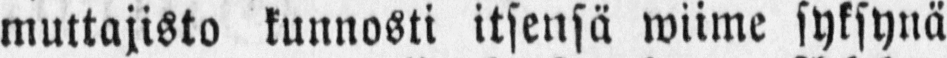muttajisto kunnosti itsensä wiime syksynä
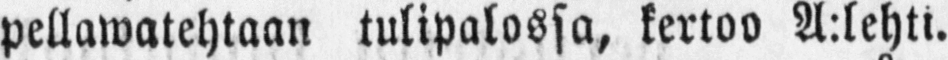pellawatehtaan tulipalossa, kertoo A:lehti.
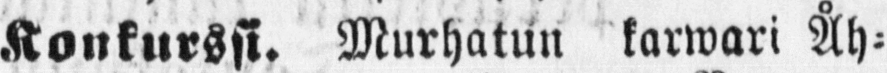Konkurssi. Murhatun karwari Åh-
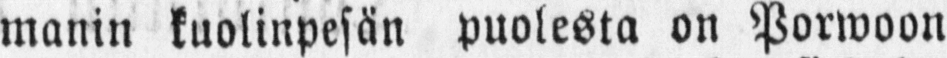manin kuolinpesän puolesta on Porwoon
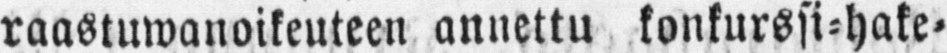raastuwanoikeuteen annettu konkurssi-hake-
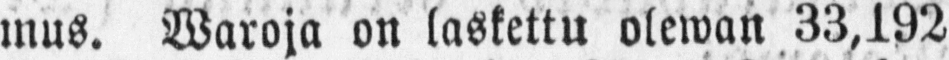mus. Waroja on laskettu olewan 33,192
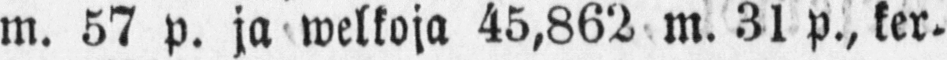m. 57 p. ja welkoja 45,862 m. 31 p., ker-
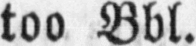too Bbl.
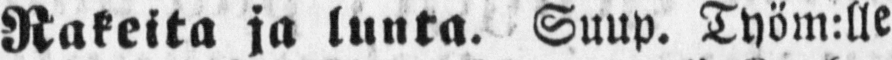Rakeita ja lunta. Suup. Työm:lle
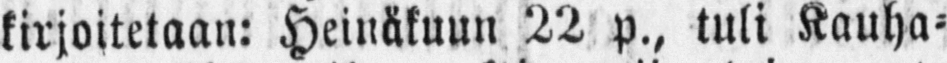kirjoitetaan: Heinäkuun 22 p., tuli Kauha-
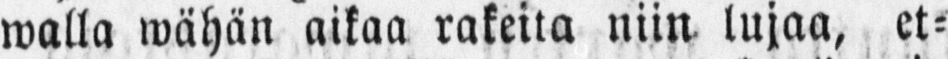walla wähän aikaa rakeita niin lujaa, et-
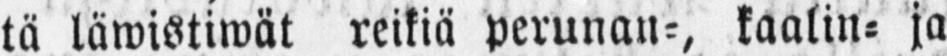tä läwistiwät reikiä perunan-, kaalin- ja
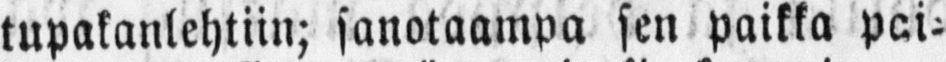tupakanlehtiin; sanotaampa sen paikka pai-
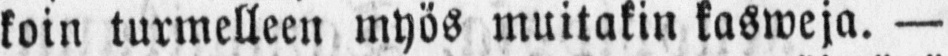koin turmelleen myös muitakin kasweja. —
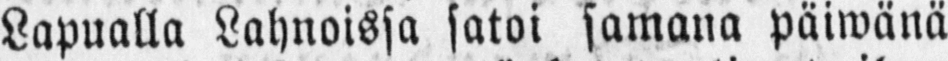Lapualla Lahnoissa satoi samana päiwänä
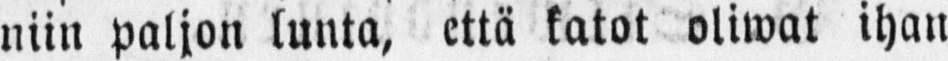niin paljon lunta, että katot oliwat ihan
